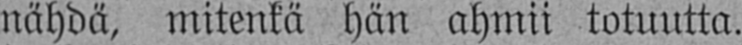nähdä, mitenkä hän ahmii totuutta.
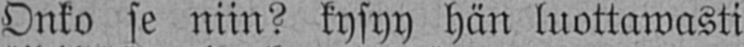Onko se niin? kysyy hän luottawasti
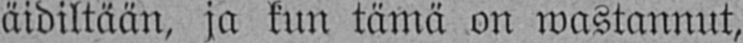äidiltään, ja kun tämä on wastannut,
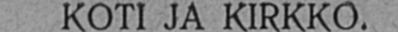KOTI JA KIRKKO.
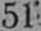51
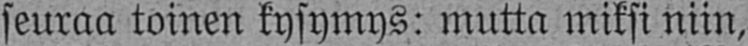seuraa toinen kysymys: mutta miksi niin,
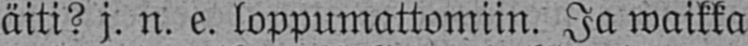äiti? j. n. e. loppumattomiin. Ja waikka
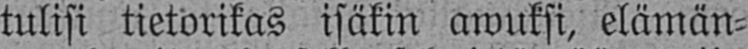tulisi tietorikas isäkin awuksi, elämän-
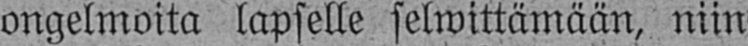ongelmoita lapselle selwittämään, niin
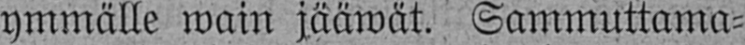ymmälle wain jääwät. Sammuttama-
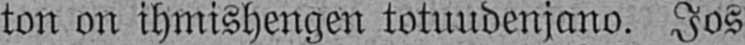ton on ihmishengen totuudenjano. Jos
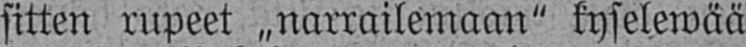sitten rupeet „narrailemaan" kyselewää
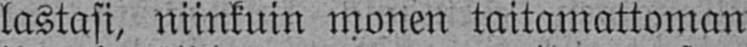lastasi, niinkuin monen taitamattoman
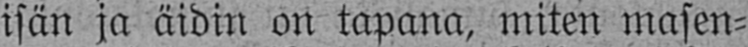isän ja äidin on tapana, miten masen-
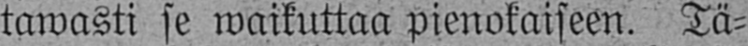tawasti se waikuttaa pienokaiseen. Tä-
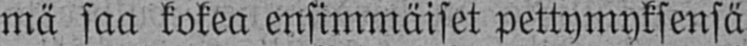mä saa kokea ensimmäiset pettymyksensä
